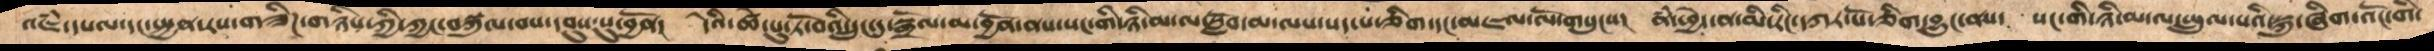འཇཾ་དཔལ་དང་སྤྱན་རས་གཟིཌ་གཉིས་ཀྱི་ཀྱང་བསྐུལ་བས་དབུས་སུ་བྱོན།  དིའི་ཚེ་པུ་ཏོ་བའི་དྲུང་དུ་སྒྲོལ་མ་བྱོན་ནས་སང་གི་ཉི་མ་ལ་སློབ་མ་ལས་སད་པ་ཅིག་དང་མཇལ་ལོ་གསུངས།  ནཾ་ཕྱེད་ན་མི་རིང་དཀར་པོ་ཅིག་བྱུང་ནས།  སང་གི་ཉི་མ་ལ་སྤྲུལ་པའི་སྐུ་ཞིག་འོང་གི་
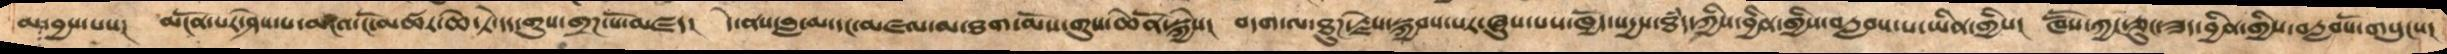མ་བྱས་པས།  མངོན་པར་ཤེས་པ་མངའ་ངོ་མཚར་ཆེ་ཏེ་དད་གུས་གྲཌ་པོ་མཛད།  དེ་ནས་བླ་མ་དང་མཇལ་མ་ཐག་མོས་གུས་ཆེནོ་སྐྱེས།  བདག་ལ་ཐུཌ་རྗེས་སྐྱབས་པར་ཞུས་པས་ཁྱོད་སདྱས་ཐཾད་ཀྱིས་བྱིན་གྱིས་བརླབས་པ་ཡིན་གྱིས། ཁཽས་ཀྱང་ཅུང་ཟད་བྱིན་གྱིས་བརླབསོ་གསུངས།
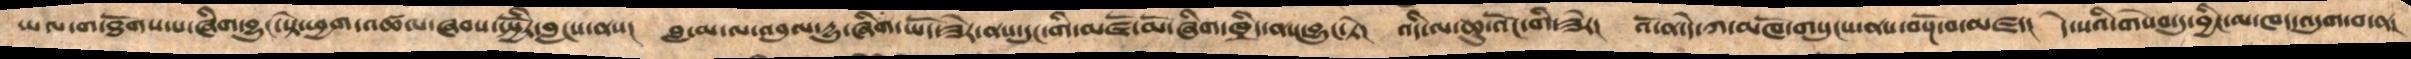ཡལ་ག་ཐོགས་པ་ཞིག་བྱུང་སྟེ་ཕྱག་འཚལ་ཞབས་སྤྱིརོ་བླངས་ནས།   བླ་མ་ལ་འབུལ་དྱུ་ཞིག་ཡོད་ཟེར་ནས་དུང་གི་མཛོ་མོ་ཞིག་ཁྲིད་ནས་བྱུང་ཏེ། འདི་ལ་ཆུ་འོང་གི་ཟེར།  འོ་ན་དེ་ཀ་མཁོ་གསུངས་ནས་བསྔོ་བ་མཛད།  དེ་སའི་གསེབ་དུ་བྱིང་ལ་ཁད་འདུག་བ་ན།
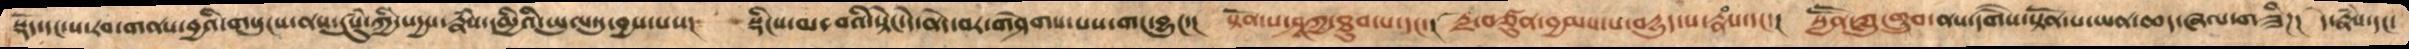སྡོད་དང་ས་རབ་གནས་བྱའི་གསུངས་ནས་དུསུཾ་ཀྱི་སདྱས་རྣཾས་དམྱིའི་ཡུལ་དུ་བྱས་པས།   སྡིངས་མ་བའི་སྟེང་དེ་བདེ་བར་གཤེགས་པས་གང་བྱུང་།  སྟོན་པ་ཤཱཀྱ་ཐུབ་པ་དང་།  རྗེ་བཙུན་བྱམས་པ་བདྱུད་པ་རྣཾས་དང་།   སླཽན་ཀླུ་གྲུབ་ནས་དགཻས་སྟོན་པ་ཡན་ཆད་ཞལ་གཟིཌ། དེ་རྣཾས་དང་
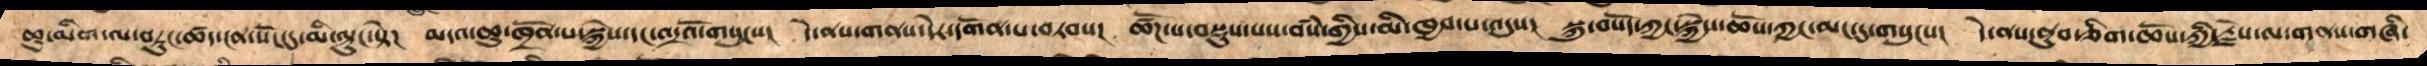ཆུ་མིག་ལ་བཏུང་ཚད་ངན་སོང་དུ་མི་ལྟུང་སྟེ།  མདའ་ཆུ་ཁྲོན་པ་སྐྱེས་དང་འདྲའོ་གསུངས།  དེ་ནས་གནས་དེར་དགོན་པ་བཏབས།  ཚོཌ་པ་བསྡུས་པས་བསཾ་གྱིས་མི་ཁྱབ་པ་འདུས།  སྐུ་བསོད་ཀྱང་སྐྱེས་ཆོས་ཀྱང་མང་དུ་གསུངས།  དེ་ནས་ནུབ་ཅིག་ཆོས་ཀྱི་རྗེས་ལ་གནས་གཞི་
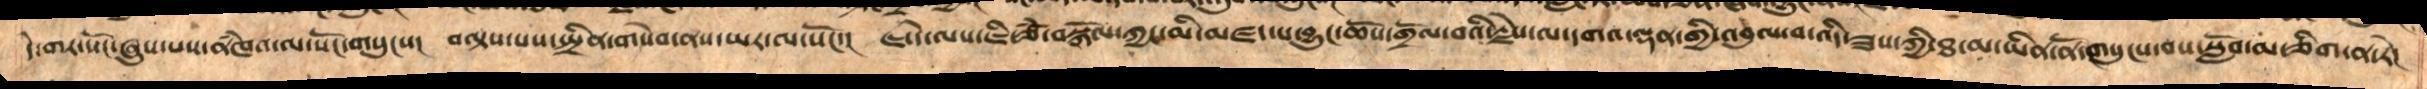དེ་གར་སོང་ཞུས་པས་ནཾཁའ་ལ་སོང་གསུངས།  བལྟས་པས་སྤྲིན་གསེབ་ནས་ཡར་ལ་སོང་།  ཇ་དེ་ལས་ཇི་ཙཾ་བསྐོལ་ཀྱང་མི་མཛད་པ་བྱུང་ཆོས་གྲོལ་བའི་རྗེས་ལ་དགའ་ལྡན་གྱི་འབུལ་བ་འདི་ཟས་ཀྱི་ཐ་མ་ཡིན་ནོ་གསུངས་བས་སློབ་མ་ཅིག་ན་རེ།
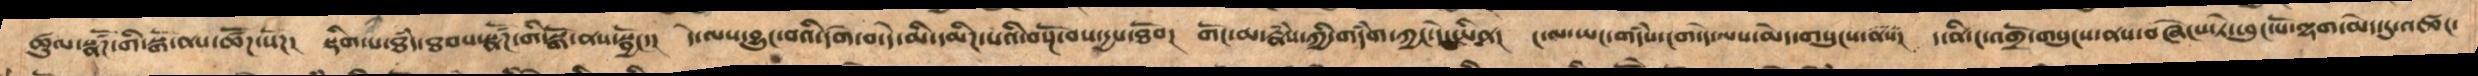ཚུལ་སྣཚོཌ་གི་སྒོ་ནས་ཚོཌ་སོཌ།  སྡིག་པ་ཐཾད་ཐབས་སྣཚོཌ་གི་སྒོ་ནས་སྦྱོང་།  དེ་ལས་བྱུང་བའི་དགེ་བ་དེ་མི་དམིཌ་པའི་བསྔོ་བས་དྱས་ཐོབ།  གོང་མ་རྣཾས་ཀྱི་གདཾག་ཀྱང་དེ་ཡིན།  ང་ལ་ཡང་གདཾས་ངག་དེ་ལས་མེད་གསུངས་ནས་།  ད་ནི་ང་འགྲོ་གསུངས་ནས་བཞེངས་ཏེ་ཕུང་པོ་ལྷག་མེད་དུ་འཚང་
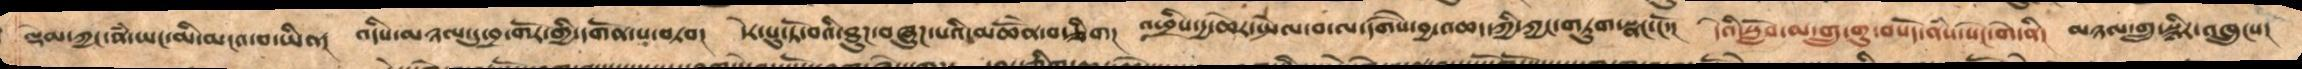ལྡམ་ཀྱང་ནཾ་ཡང་མི་མངའ་བ་ཡིན།  འདིས་མཉལ་དུ་བྲ་གོར་གྱི་དགོན་པ་བཏབ།  དེར་པུ་ཏོ་བའི་ཐུཌ་བཞུཌ་པའི་མཆོེན་བ་ཅིག།  འཕྲིས་དྱ་ཆེར་སྤེལ་བ་ལ་དགཻས་བྱ་འཆད་ཀྱི་ཀྱང་གཏུག་སྣང་ངོ་།  དེའི་སློབ་མ་གྲུ་གུ་བསོད་ནཾས་སེང་གེ་ནི།  མཉལ་གྲུ་སྙིར་འཁྲུངས
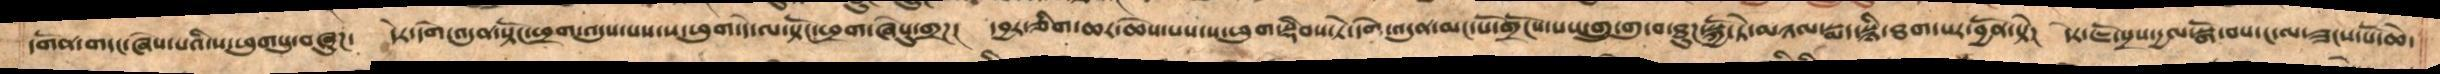དགོན་གདང་ཞེས་པའི་ས་ཕུགསུ་བཞུཌ།  དེར་དགེ་འདུན་སྟོང་ཕྲག་འདུས་པས་ས་ཕུག་དེ་ལ་སྟོང་ཕྲག་ཞེསུ་གྲཌ།  དབྱར་ཅིག་ཆར་ཆེས་པས་ས་ཕུག་སྡིབས་ཏེ་དགེ་འདུན་མང་པོ་གྲོངས་པས་གྲུ་གུ་པ་ཐུཌ་སྐྱོ་ཏེ་མཉལ་སྨད་སྙི་ཐག་པར་བྱོན་སྟེ།  དེར་ཇོ་སྲས་དྱལ་སྒོ་བས་ང་ལ་ཟངས་པོ་ཆེ་
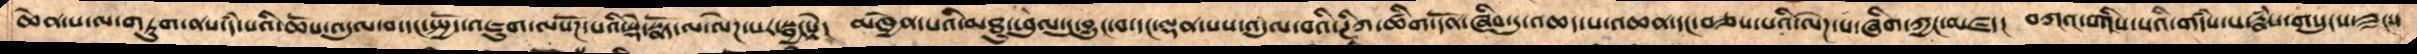ཆེན་པ་ལ་གཏུག་ནས་དཾ་པའི་ཆོས་འདུལ་བ་དང་སྤྱོད་འཇུག་ལསོཌ་པའི་སྡེ་སྣོད་ལ་ལེཌ་པར་སྦྱངསྟེ།  མཁྱེན་པའི་མཐུ་ཕུལ་དུ་བྱུང་བ་དང་ལྡན་པས་འདུལ་བའི་ཊཱིཀ་ཚིག་དོན་ཞིབ་དུ་འཆད་པ་མཆན་དང་བཅས་པའི་ལེཌ་པ་ཞིག་ཀྱང་མཛད།  བཀའ་གདཾས་ཀྱི་གདཾས་པ་རྣཾས་གསུངས་ཟངས་
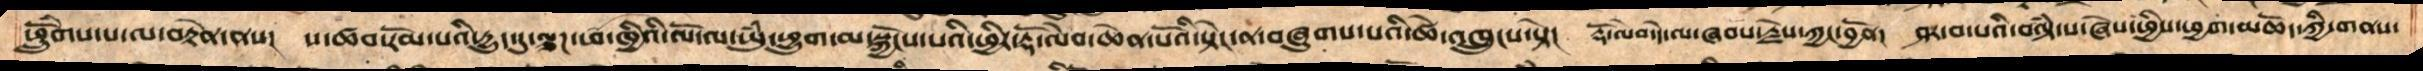ཕྲོེུགས་པ་ལ་བརྟེན་ནས།  ས་ཚབ་རོམ་པའི་དྱུད་དུ་ལྕཌ་ཕོ་ཁྱིའི་ལོ་ལ་ཡུཾ་ཕྱུག་མ་སྐྱོངས་པའི་ཕྱིར་རྡོ་ལེབ་ཆེན་པོའི་སྟེང་ན་བཞུགས་པའི་ཚེ་འཁྲུངས་སྟེ།  རྡོ་ལེབ་དེ་ལ་ཞབས་རྗེས་ཀྱང་བྱོན།  ཤར་བ་པའི་བལྟཾ་པ་ཞེས་ཕྱིས་ཕྱག་མཆོད་ཀྱི་གནས་
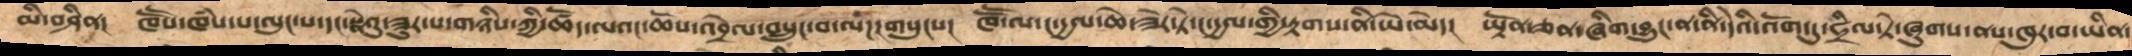མི་བཤིན།  ཁཽས་ཁཾས་པ་ལུང་པ་དང་སྣེའུ་ཟུར་པ་གཉིས་ཀྱི་ཚོད་ལའང་ཆོས་འབྲེལ་བསྲུང་བ་ལཌ་གསུངས།  ཁཽ་ལ་ང་དྱལ་ཆེ་ཟེར་ཏེ་ང་དྱལ་གྱི་རྟགས་ནི་ཡེ་མེད།  ཡྟོན་ཅན་ཞིག་བྱུང་ན་ནི་དེའི་འོག་དུ་ཧྲིལ་ཏེ་ཞུགས་ནས་ཁུར་བ་ཡིན་
